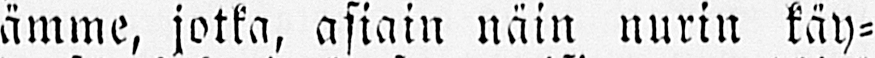ämme, jotka, asiain näin nurin käy-
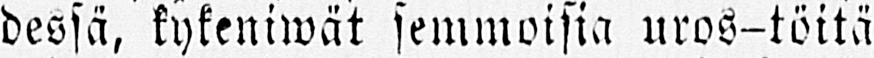dessä, kykeniwät semmoisia uros-töitä
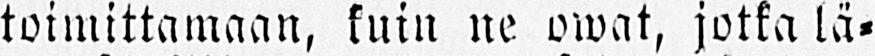toimittamaan, kuin ne owat, jotka lä-
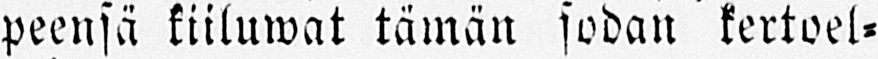peensä kiiluwat tämän sodan kertoel-
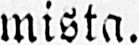mista.
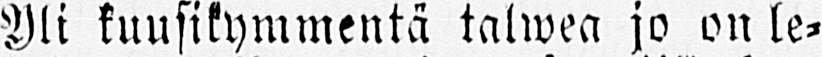Yli kuusikymmentä talwea jo on le-
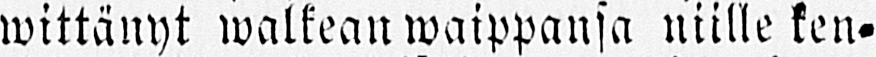wittänyt walkean waippansa niille ken-
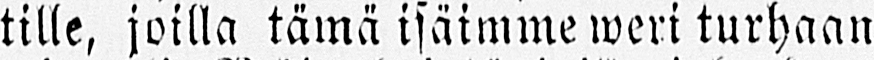tille, joilla tämä isäimme weri turhaan
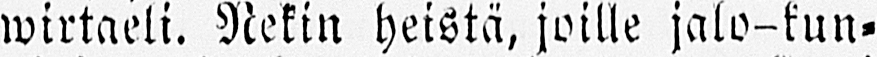wirtaeli. Nekin heistä, joille jalo-kun-
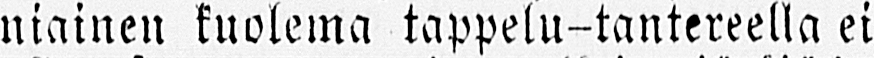niainen kuolema tappelu-tantereella ei
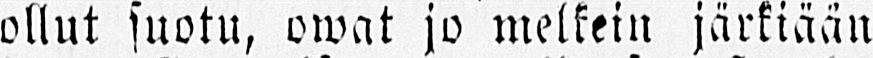ollut suotu, owat jo melkein järkiään
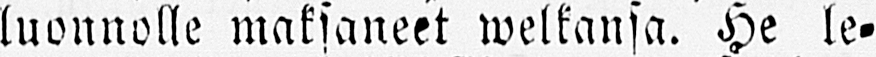luonnolle maksaneet welkansa. He le-
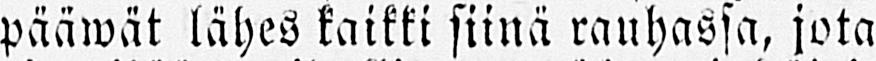pääwät lähes kaikki siinä rauhassa, jota
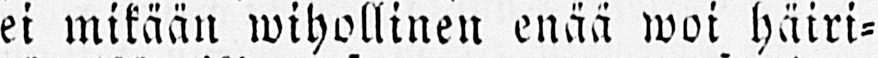ei mikään wihollinen enää woi häiri-
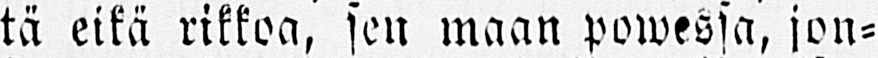tä eikä rikkoa, sen maan powessa, jon-
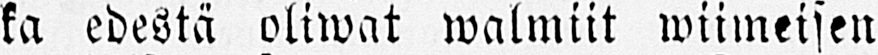ka edestä oliwat walmiit wiimeisen
